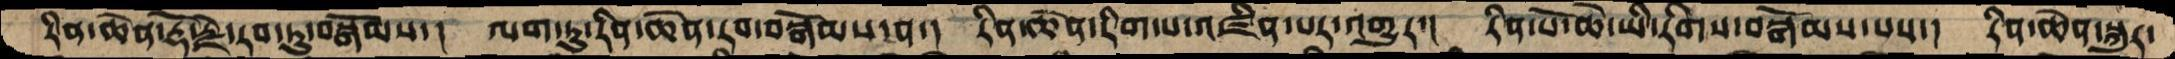རིན་ཆེན་རྡོ་རྗེ་རབ་ཏུ་བསྒོམས་།  ལག་ཏུ་རིན་ཆེན་རབ་བསྒོམས་ན་།  རིན་ཆེན་རིག་པ་འཛིན་པར་འགྱུར་།  རིན་པོ་ཆེ་ཡི་རིགས་བསྒོམས་པས་།  རིན་ཆེན་སྐུར་
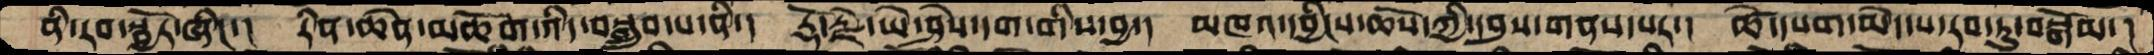ནི་རབ་སྦྱོར་ཞིང་།  རིན་ཆེན་མཆོག་འདི་བསྒྲུབ་པ་ནི་།  རྡོ་རྗེ་ཡེ་ཤེས་དག་གིས་བྱ་།  མཁའ་དབྱིངས་ཆོས་ཀྱི་དབུས་གནས་པར་།  ཚེ་དཔག་མེད་པ་རབ་ཏུ་བསྒོམ་།
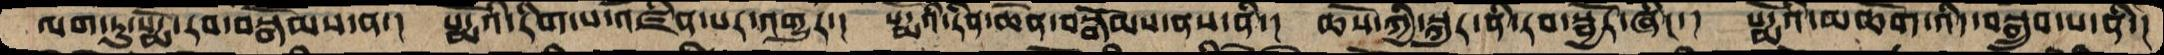ལག་ཏུ་པདྨོ་རབ་བསྒོམས་ན་།  པདྨོའི་རིག་པ་འཛིན་པར་འགྱུར་།  པདྨའི་རིན་ཆེན་བསྒོམས་ནས་ནི་།  ཆོས་ཀྱི་སྐུར་ནི་རབ་སྦྱོར་ཞིང་།  པདྨོའི་མཆོག་འདི་བསྒྲུབ་པ་ནི་།
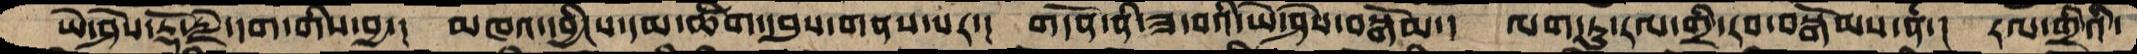ཡེ་ཤེས་རྡོ་རྗེ་དག་གིས་བྱ་།  མཁའ་དབྱིངས་དམ་ཚིག་དབུས་གནས་པར་།  གདོན་མི་ཟ་བའི་ཡེ་ཤེས་བསྒོམ་།  ལག་ཏུ་རལ་གྲི་རབ་བསྒོམས་ན་།  རལ་གྲིའི་
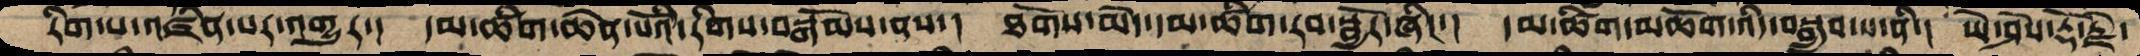རིག་པ་འཛིན་པར་འགྱུར་།  དམ་ཚིག་ཆེན་པོའི་རིགས་བསྒོམས་ནས་།  ཐོགས་མེད་དམ་ཚིག་རབ་སྦྱོར་ཞིང་།  དམ་ཚིག་མཆོག་འདི་བསྒྲུབ་པ་ནི་།  ཡེ་ཤེས་རྡོ་རྗེ་
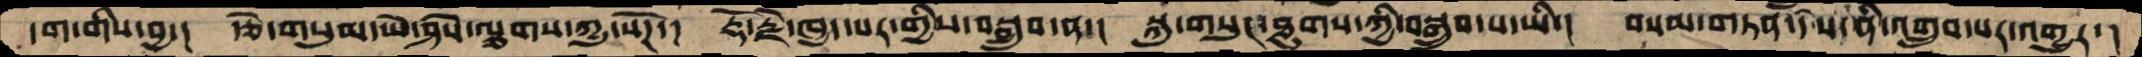དག་གིས་བྱ་།  རྩེ་གསུམ་ཡེ་ཤེས་ལྕགས་ཀྱུ་སོཌ་།  རྡོ་རྗེ་ཁྱད་པར་གྱིས་བསྒྲུབ་ན་།  སྐུ་གསུང་ཐུགས་ཀྱི་བསྒྲུབ་པ་ཡི་།  བསམ་གཏན་དེས་ནི་འགྲུབ་པར་འགྱུར་།
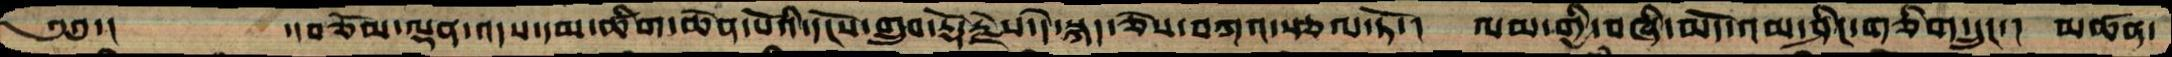༄༅་།     ་།བཅོམ་ལྡན་འདས་དམ་ཚིག་ཆེན་པོའི་དངོས་གྲུབ་རྡོ་རྗེས་དེ་སྐད་ཅེས་བཀའ་སྩལ་ཏོ་།  ལམ་གྱི་བཞི་མདོ་འམ་ཤིང་གཅིག་དྲུང་།  མཚན་
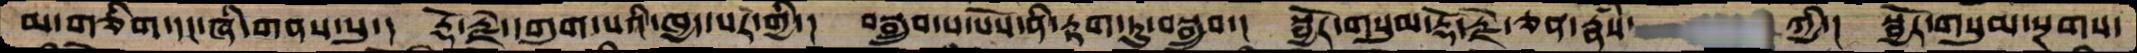མ་གཅིག་དང་ཞི་གནས་སུ་།  རྡོ་རྗེ་དགུག་པའི་ཁྱད་པར་གྱི་།  བསྒྲུབ་པ་པོས་ནི་རྟག་ཏུ་བསྒྲུབ་།  སྦྱོར་གསུམ་རྡོ་རྗེ་ཅན་རྣཾས་     ཀྱི་།   སྦྱོར་གསུམ་སྔགས་
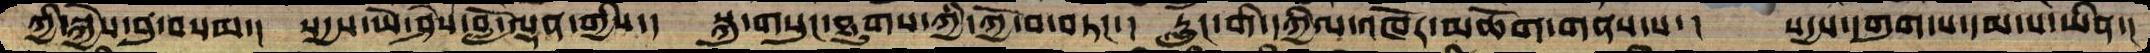ཀྱི་སྐྱེས་བུ་བསམ་།  སདྱས་ཡེ་ཤེས་བློ་ལྡན་གྱིས་།  སྐུ་གསུང་ཐུགས་ཀྱི་ཀྱོ་བ་བཏང་།  རླུང་གི་དཀྱིལ་འཁོར་མཆོག་གནས་པ་།    སདྱས་དགུག་པ་དམ་པ་ཡིན་།
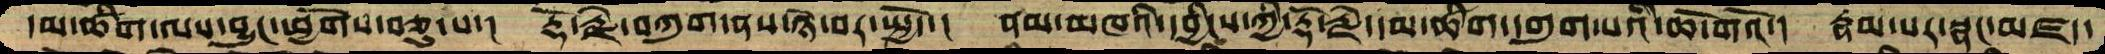དམ་ཚིག་ལས་བྱུང་ཕྱོགས་བཅུ་པ་།།  རྡོ་རྗེ་བཀུག་ནས་ཉེ་བར་སྤྱོད་།  ནམ་མཁའི་དབྱིངས་ཀྱི་རྡོ་རྗེ་དམ་ཚིག་དགུག་པའི་ཆོ་གའོ་།  རྣམ་པར་སྣང་མཛད་
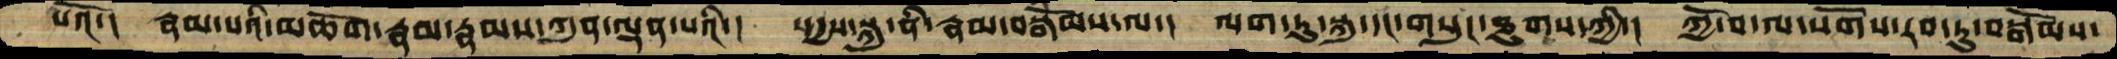པའོ་།  རྣམ་པའི་མཆོག་རྣམ་རྣམས་ཀུན་ལྡན་པའི་།  སདྱས་སྐུ་ནི་རྣམ་བསྒོམས་ལ་།  ལག་ཏུ་སྐུ་དང་གསུང་ཐུགས་ཀྱི་།  ཀྱོ་བ་ལ་སོགས་རབ་ཏུ་བསྒོམས་
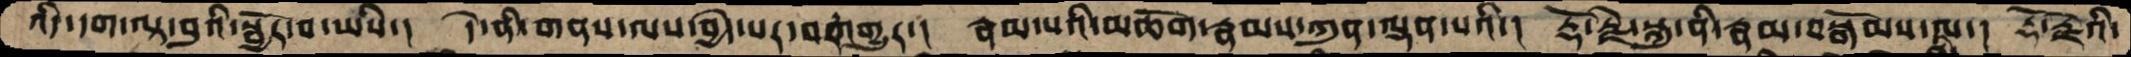འདི་དག་ལྟ་བུའི་སྦྱོར་བ་ཡིས་།  དེ་ནི་གནས་ལས་བྱེད་པར་བར་འགྱུར་།  རྣམ་པའི་མཆོག་རྣམས་ཀུན་ལྡན་པའི་།་ རྡོ་རྗེ་སྐུ་ནི་རྣམ་བསྒོམས་ལ་།  རྡོ་རྗེའི་
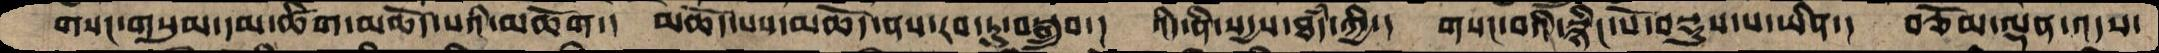གསང་གསུམ་དམ་ཚིག་མཆོད་པའི་མཆོག་།  མཆོད་པས་མཆོད་ནས་རབ་ཏུ་བསྒྲུབ་།  འདི་ནི་སདྱས་ཐཾད་ཀྱི་།  གསང་བའི་སྙིང་པོ་བསྡུས་པ་ཡིན་།  བཅོམ་ལྡན་འདས་
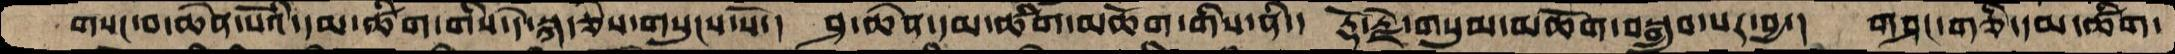གསང་བ་ཆེན་པོའི་དམ་ཚིག་གིས་དེ་སྐད་ཅེས་གསུངས་སོ་།  ཤ་ཆེན་དམ་ཚིག་མཆོག་གིས་ནི་།  རྡོ་རྗེ་གསུམ་མཆོག་བསྒྲུབ་པར་བྱ་།  གཤང་གཅི་དམ་ཚིག་
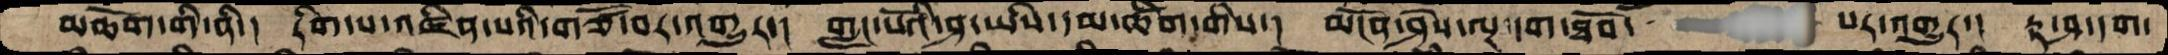མཆོག་གི་ནི་།  རིག་པ་འཛིན་པའི་གཙོ་བར་འགྱུར་།  གླང་པོའི་ཤ་ཡིས་དམ་ཚིག་གིས་།  མངོན་ཤེས་ལྔ་དག་ཐོབ་   པར་འགྱུར་།  རྟ་ཤ་དག་
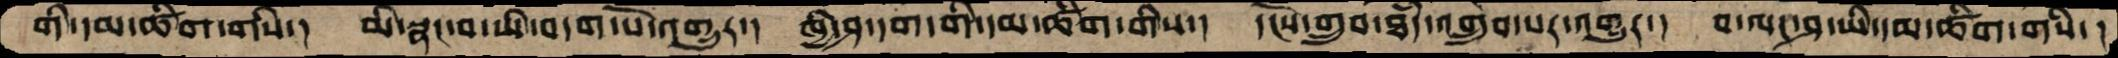གི་དམ་ཚིག་གིས།  མི་སྣང་བ་ཡི་བདག་པོ་འགྱུར་།  ཁྱི་ཤ་དག་གི་དམ་ཚིག་གིས་།  དངོས་གྲུབ་ཐཾད་འགྲུབ་པར་འགྱུར་།  བ་ལང་ཤ་ཡི་དམ་ཚིག་གིས་།
